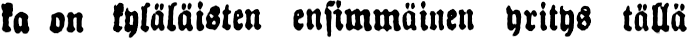ka on kyläläisten ensimmäinen yritys tällä
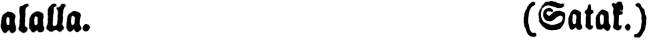alalla. (Satak.)
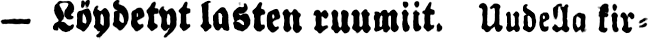— Löydetyt lasten ruumiit. Uudellakir-
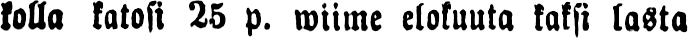kolla katosi 25 p. wiime elokuuta kaksi lasta
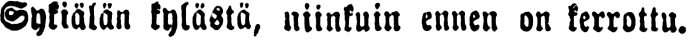Sykiälän kylästä, niinkuin ennen on kerrottu.
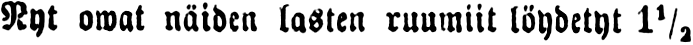Nyt owat näiden lasten ruumiit löydetyt 1½
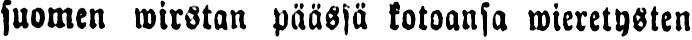suomen wirstan päässä kotoansa wieretysten
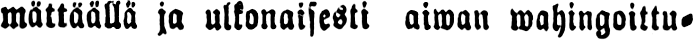mättäällä ja ulkonaisesti aiwan wahingoittu-
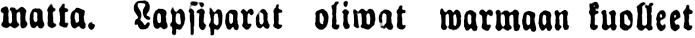matta. Lapsiparat oliwat warmaan kuolleet
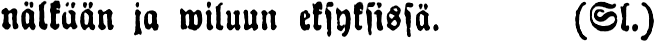nälkään ja wiluun eksyksissä. (Sl.)
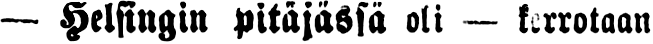— Helsingin pitäjässä oli — kerrotaan
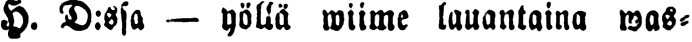H. D:ssa — yöllä wiime lauantaina was-
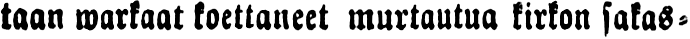taan warkaat koettaneet murtautua kirkon sakas-
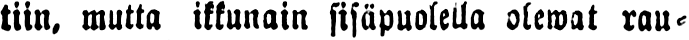tiin, mutta ikkunain sisäpuolella olewat rau-
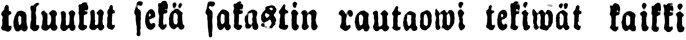taluukut sekä sakastin rautaowi tekiwät kaikki
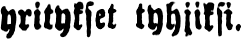yritykset tyhjiksi.
